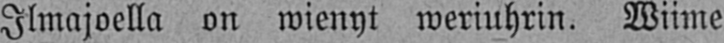Ilmajoella on wienyt weriuhrin. Wiime
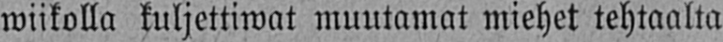wiikolla kuljettiwat muutamat miehet tehtaalta
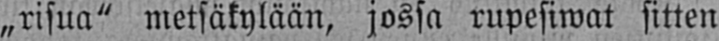„risua" metsäkylään, jossa rupesiwat sitten
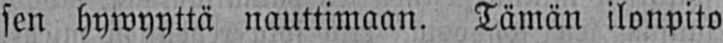sen hywyyttä nauttimaan. Tämän ilonpito
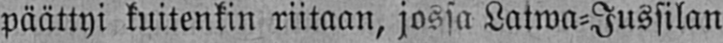päättyi kuitenkin riitaan, jossa Latwa-Jussilan
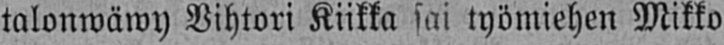talonwäwy Vihtori Kiikka sai työmiehen Mikko
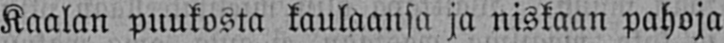Kaalan puukosta kaulaansa ja niskaan pahoja
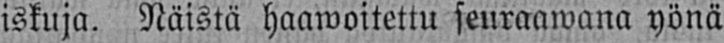iskuja. Näistä haawoitettu seuraawana yönä
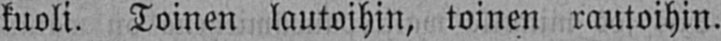kuoli. Toinen lautoihin, toinen rautoihin.
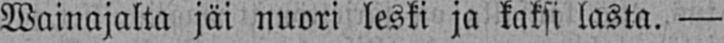Wainajalta jäi nuori leski ja kaksi lasta. —
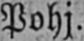Pohj.
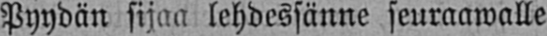Pyydän sijaa lehdessänne seuraawalle:
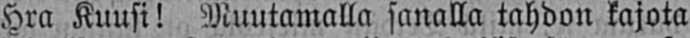Hra Kuusi! Muutamalla sanalla tahdon kajota
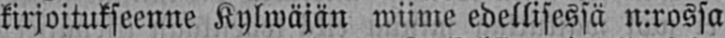kirjoitukseenne Kylwäjän wiime edellisessä n:rossa
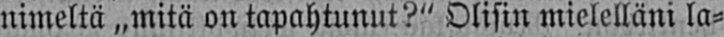nimeltä „mitä on tapahtunut?" Olisin mielelläni la-
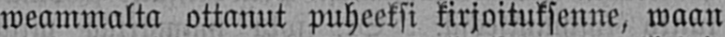weammalta ottanut puheeksi kirjoituksenne, waan
